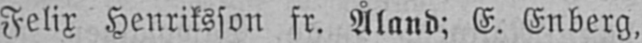Felix Henriksson fr. Åland; E. Enberg,
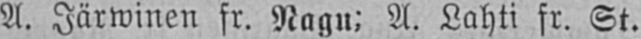A. Järwinen fr. Nagu: A. Lahti fr. St.
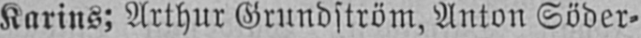Karins; Arthur Grundström, Anton Söder-
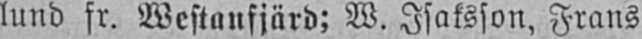lund fr. Westanfjärd; W. Isaksson, Frans
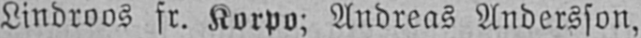Lindroos fr. Korpo; Andreas Andersson,
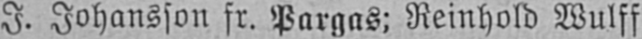I. Johansson fr. Pargas; Reinhold Wulff
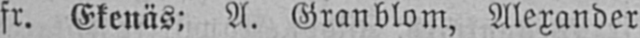fr. Ekenäs; A. Granblom, Alexander
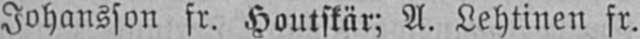Johansson fr. Houtskär; A. Lehtinen fr.
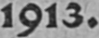1913.
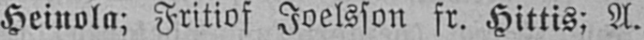Heinola; Fritiof Joelsson fr. Hittis; A.
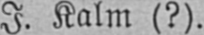I. Kalm (?).
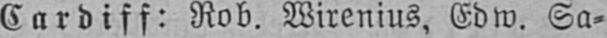Cardiff: Rob. Wirenius, Edw. Sa-
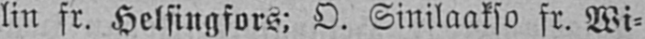lin fr. Helsingfors: O. Sinilaakso fr. Wi-
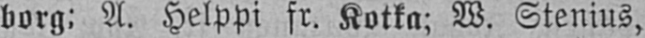borg; A. Helppi fr. Kotka; W. Stenius,
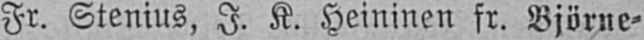Fr. Stenius, I. K. Heininen fr. Björne-
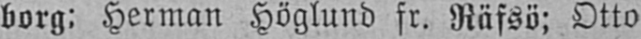borg: Herman Höglund fr. Räfsö; Otto
